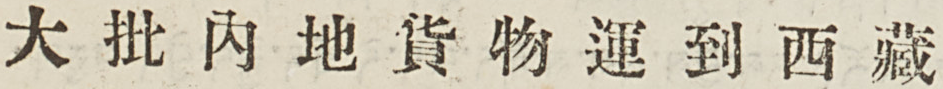大 批 內 地 貨 物 運 到 西 藏
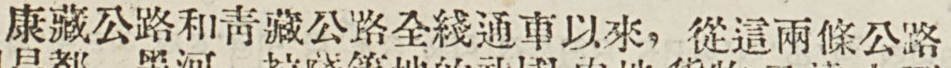康藏公路和靑藏公路全綫通車以來，從這兩條公路
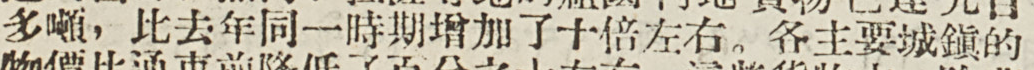多噸，比去年同一時期增加了十倍左右。各主要城鎮的
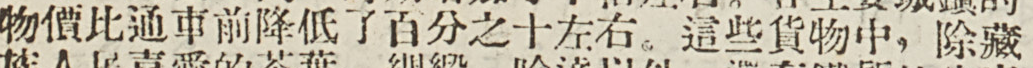物價比通車前降低了百分之十左右。這些貨物中，除藏
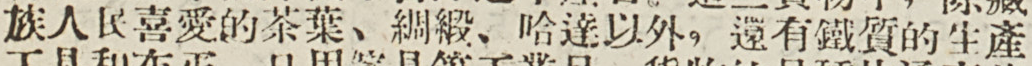族人民喜愛的茶葉、綢緞、哈達以外，還有鐵質的生產
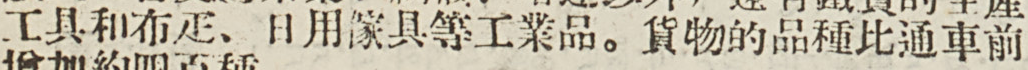工具和布疋、日用傢具等工業品。貨物的品種比通車前
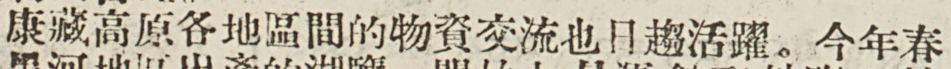康藏高原各地區間的物資交流也日趨活躍。今年春
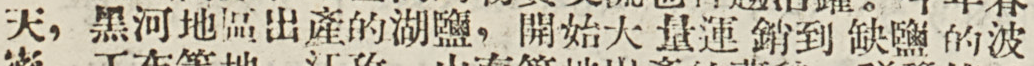天，黑河地區出產的湖鹽，開始大量運銷到缺鹽的波
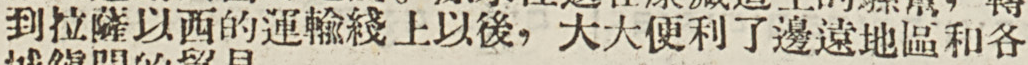到拉薩以西的運輸綫上以後，大大便利了邊遠地區和各
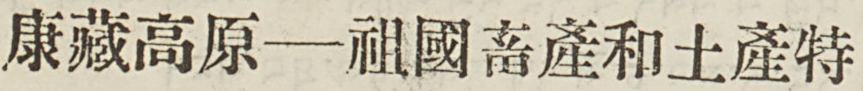康藏高原——祖國畜產和土產特
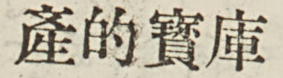產的寶庫
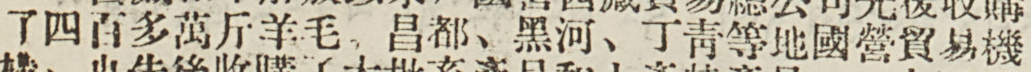了四百多萬斤羊毛，昌都、黑河、丁靑等地國營貿易機
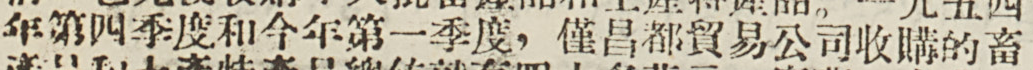年第四季度和今年第一季度，僅昌都貿易公司收購的畜
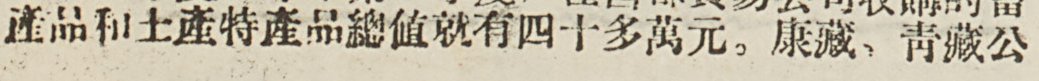產品和土產特產品總值就有四十多萬元。康藏、靑藏公
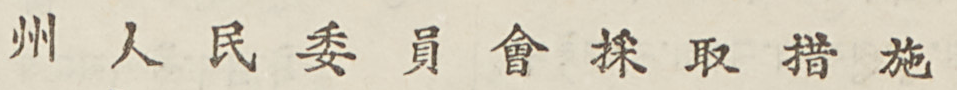州 人 民 委 員 會 採 取 措 施
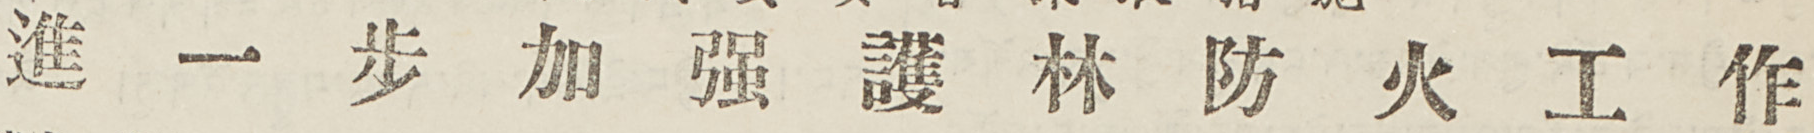進 一 步 加 強 護 林 防 火 工 作
